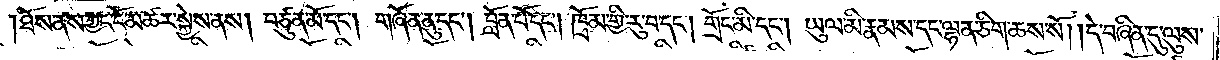།ཐོས་ནས་ཀྱང་ངོ་མཚར་སྐྱེས་ནས། བཙུན་མོ་དང༌། གཞོན་ནུ་དང༌། བློན་པོ་དང༌། ཁྲོམ་གྱི་རུ་བ་དང༌། གྲོང་མི་དང༌། ཡུལ་མི་རྣམས་དང་ལྷན་ཅིག་ཆས་སོ། །དེ་བཞིན་དུ་ལུས་
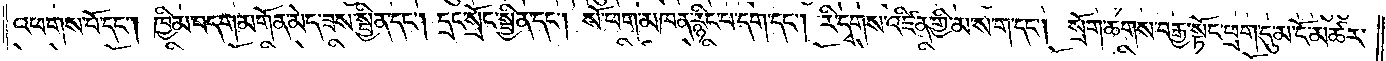འཕགས་པོ་དང༌། ཁྱིམ་བདག་མགོན་མེད་ཟས་སྦྱིན་དང༌། དྲང་སྲོང་སྦྱིན་དང༌། སོ་ཕག་མཁན་རྙིང་པ་དག་དང༌། རི་དྭགས་འཛིན་གྱི་མ་ས་ག་དང༌། སྲོག་ཆགས་བརྒྱ་སྟོང་ཕྲག་དུ་མ་ངོ་མཚར་
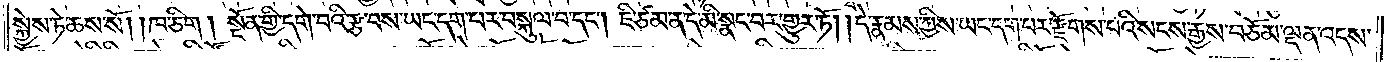སྐྱེས་ཏེ་ཆས་སོ། །ཁ་ཅིག །སྔོན་གྱི་དགེ་བའི་རྩ་བས་ཡང་དག་པར་བསྐུལ་བ་དང༌། ཇི་ཙམ་ན་དེ་མི་སྣང་བར་གྱུར་ཏོ། །དེ་རྣམས་ཀྱིས་ཡང་དག་པར་རྫོགས་པའི་སངས་རྒྱས་བཅོམ་ལྡན་འདས་
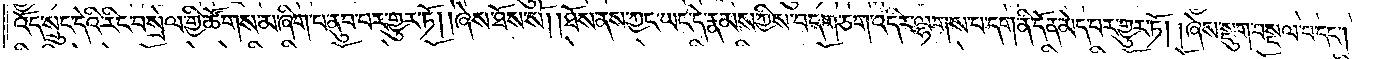འོད་སྲུང་དེའི་རིང་བསྲེལ་གྱི་ཚོགས་མ་ཞིག་པ་ནུབ་པར་གྱུར་ཏོ། །ཞེས་ཐོས་སོ། །ཐོས་ནས་ཀྱང་ཡང་དེ་རྣམས་ཀྱིས་བདག་ཅག་འདིར་ལྷགས་པ་དག་ནི་དོན་མེད་པར་གྱུར་ཏོ། །ཞེས་སྡུག་བསྔལ་བ་དང༌།
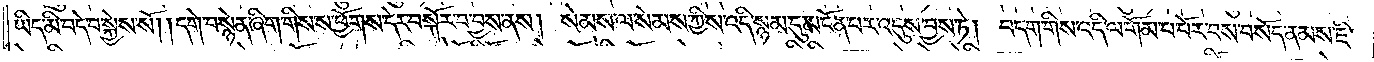ཡིད་མི་བདེ་བ་སྐྱེས་སོ། །དགེ་བསྙེན་ཞིག་གིས་ས་ཕྱོགས་དེར་བསྐོར་བ་བྱས་ནས། སེམས་ལ་སེམས་ཀྱིས་འདི་སྙམ་དུ་མངོན་པར་འདུས་བྱས་ཏེ། བདག་གིས་འདི་ལ་གོམ་པ་པོར་བས་བསོད་ནམས་ཇི་
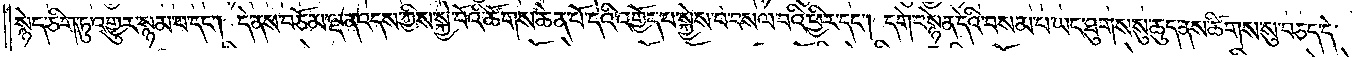སྙེད་ཅིག་ཏུ་འགྱུར་སྙམ་པ་དང༌། དེ་ནས་བཅོམ་ལྡན་འདས་ཀྱིས་སྐྱེ་བོའི་ཚོགས་ཆེན་པོ་དེའི་འགྱོད་པ་སྐྱེས་པ་བསལ་བའི་ཕྱིར་དང༌། དགེ་བསྙེན་དེའི་བསམ་པ་ཡང་ཐུགས་སུ་ཆུད་ནས་ཚིགས་སུ་བཅད་དེ་
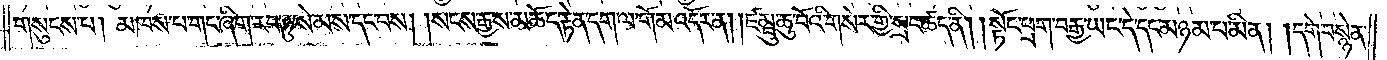གསུངས་པ། མཁས་པ་གང་ཞིག་རབ་ཏུ་སེམས་དང་བས། །སངས་རྒྱས་མཆོད་རྟེན་དག་ལ་གོམ་འདོར་ན། །ཛམྦུ་ཆུ་བོའི་གསེར་གྱི་སྲང་ཚད་ནི། །སྟོང་ཕྲག་བརྒྱ་ཡང་དེ་དང་མཉམ་པ་མིན། །དགེ་བསྙེན་
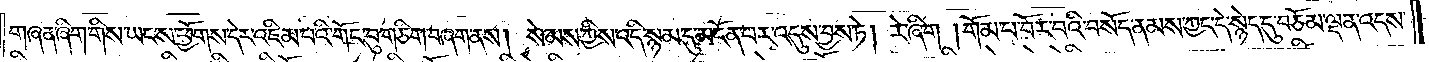གཞན་ཞིག་གིས་ཡང་ས་ཕྱོགས་དེར་འཇིམ་པའི་གོང་བུ་གཅིག་བཞག་ནས། སེམས་ཀྱིས་འདི་སྙམ་དུ་མངོན་པར་འདུས་བྱས་ཏེ། རེ་ཞིག །གོམ་པ་བོར་བའི་བསོད་ནམས་ཀྱང་དེ་སྙེད་དུ་བཅོམ་ལྡན་འདས་
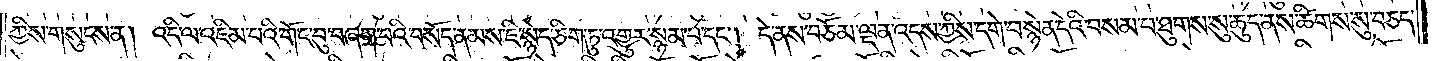ཀྱིས་གསུངས་ན། འདི་ལ་འཇིམ་པའི་གོང་བུ་བཞག་པའི་བསོད་ནམས་ཇི་སྙེད་ཅིག་ཏུ་འགྱུར་སྙམ་པ་དང༌། དེ་ནས་བཅོམ་ལྡན་འདས་ཀྱིས་དགེ་བསྙེན་དེའི་བསམ་པ་ཐུགས་སུ་ཆུད་ནས་ཚིགས་སུ་བཅད་
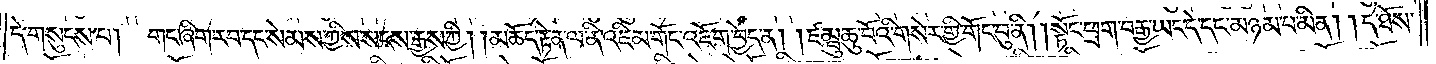དེ་གསུངས་པ། གང་ཞིག་རབ་དང་སེམས་ཀྱིས་སངས་རྒྱས་ཀྱི། །མཆོད་རྟེན་ལ་ནི་འཇིམ་གོང་འཇོག་བྱེད་ན། །ཛམྦུ་ཆུ་བོའི་གསེར་གྱི་གོང་བུ་ནི། །སྟོང་ཕྲག་བརྒྱ་ཡང་དེ་དང་མཉམ་པ་མིན། །དེ་ཐོས་
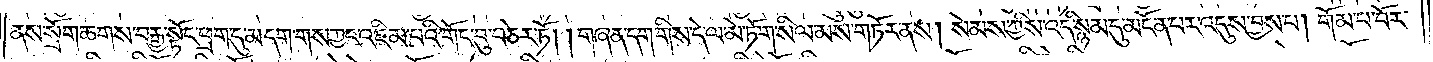ནས་སྲོག་ཆགས་བརྒྱ་སྟོང་ཕྲག་དུ་མདག་གས་ཀྱང་འཇིམ་པའི་གོང་བུ་བཅེར་ཏོ། །གཞན་དག་གིས་དེ་ལ་མེ་ཏོག་སིལ་མས་གཏོར་ནས། སེམས་ཀྱིས་འདི་སྙམ་དུ་མངོན་པར་འདུས་བྱས་པ། གོམ་པ་བོར་
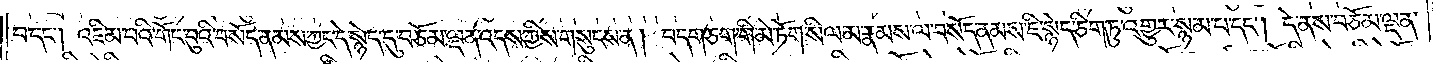བ་དང༌། འཇིམ་པའི་གོང་བུའི་བསོད་ནམས་ཀྱང་དེ་སྙེད་དུ་བཅོམ་ལྡན་འདས་ཀྱིས་གསུངས་ན། བདག་ཅག་གི་མེ་ཏོག་སིལ་མ་རྣམས་ལ་བསོད་ནམས་ཇི་སྙེད་ཅིག་ཏུ་འགྱུར་སྙམ་པ་དང༌། དེ་ནས་བཅོམ་ལྡན་
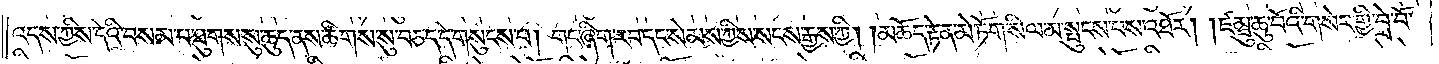འདས་ཀྱིས་དེའི་བསམ་པ་ཐུགས་སུ་ཆུད་ནས་ཚིགས་སུ་བཅད་དེ་གསུངས་པ། གང་ཞིག་རབ་དང་སེམས་ཀྱིས་སངས་རྒྱས་ཀྱི། །མཆོད་རྟེན་མེ་ཏོག་སིལ་མ་སྤུངས་པས་འཐོར། །ཛམྦུ་ཆུ་བོའི་གསེར་གྱི་བྲེ་བོ་
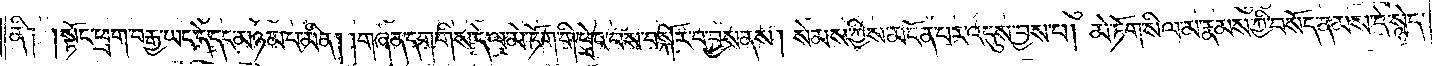ནི༑ །སྟོང་ཕྲག་བརྒྱ་ཡང་དེ་དང་མཉམ་པ་མིན། །གཞན་དག་གིས་དེ་ལ་མེ་ཏོག་གི་ཕྲེང་བས་བསྐོར་བ་བྱས་ནས། སེམས་ཀྱིས་མངོན་པར་འདུས་བྱས་པ། མེ་ཏོག་སིལ་མ་རྣམས་ཀྱི་བསོད་ནམས་དེ་སྙེད་
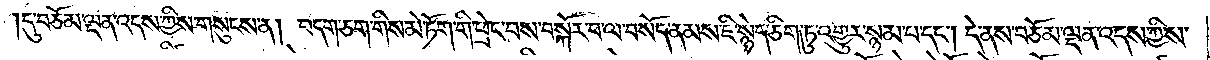།དུ་བཅོམ་ལྡན་འདས་ཀྱིས་གསུངས་ན། བདག་ཅག་གིས་མེ་ཏོག་གི་ཕྲེང་བས་བསྐོར་བ་ལ་བསོད་ནམས་ཇི་སྙེད་ཅིག་ཏུ་འགྱུར་སྙམ་པ་དང༌། དེ་ནས་བཅོམ་ལྡན་འདས་ཀྱིས་
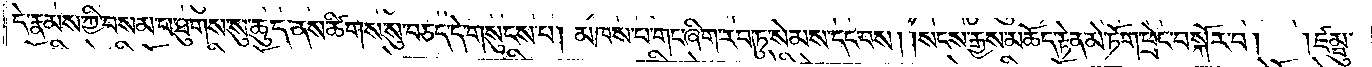དེ་རྣམས་ཀྱི་བསམ་པ་ཐུགས་སུ་ཆུད་ནས་ཚིགས་སུ་བཅད་དེ་གསུངས་པ། མཁས་པ་གང་ཞིག་རབ་ཏུ་སེམས་དང་བས། །སངས་རྒྱས་མཆོད་རྟེན་མེ་ཏོག་ཕྲེང་བསྐོར་བ།  །ཛམྦུ་
